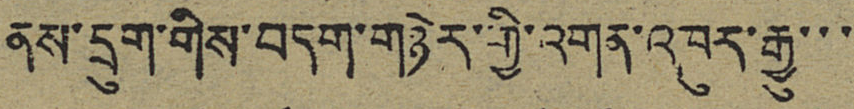ནས་དྲུག་གིས་བདག་གཉེར་གྱི་འགན་འཁུར་རྒྱུ་་་
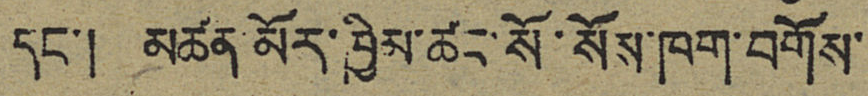དང་། མཚན་མོར་ཁྱིམ་ཚང་སོ་སོས་ཁག་བགོས་
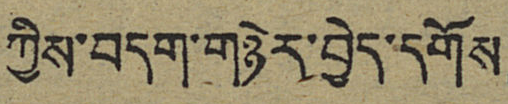ཀྱིས་བདག་གཉེར་བྱེད་དགོས།
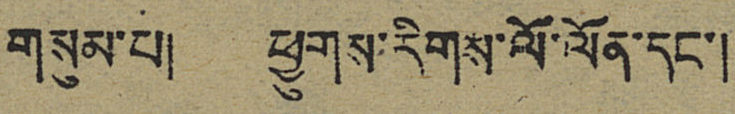གསུམ་པ། ཕྱུགས་རིགས་ལོ་ལོན་དང་།
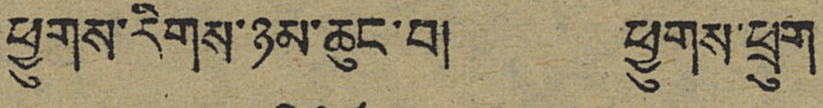ཕྱུགས་རིགས་ཉམ་ཆུང་བ། ཕྱུགས་ཕྲུག
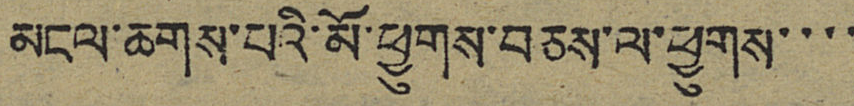མངལ་ཆགས་པའི་མོ་ཕྱུགས་བཅས་ལ་ཕྱུགས་་་་
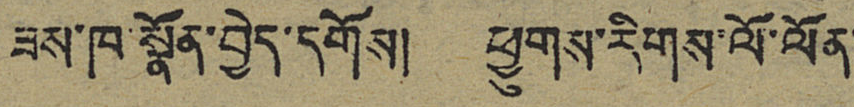ཟས་ཁ་སྣོན་བྱེད་དགོས། ཕྱུགས་རིགས་ལོ་ལོན་
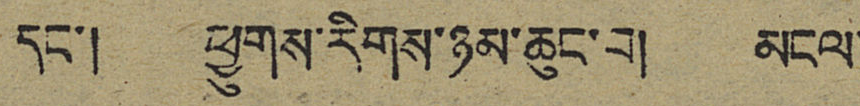དང་། ཕྱུགས་རིགས་ཉམ་ཆུང་བ། མངལ་
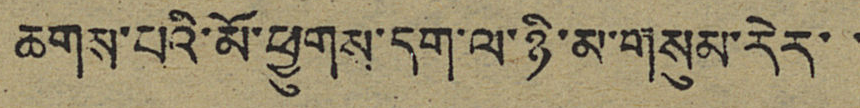ཆགས་པའི་མོ་ཕྱུགས་དག་ལ་ཉི་མ་གསུམ་རེར་་
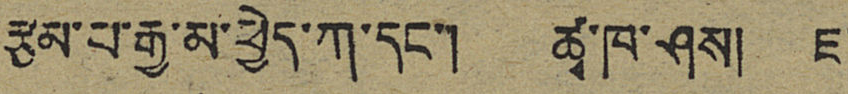རྩམ་པ་རྒྱ་མ་ཕྱེད་ཀ་དང་། ཚྭ་ཁ་ཤས། ཇ་
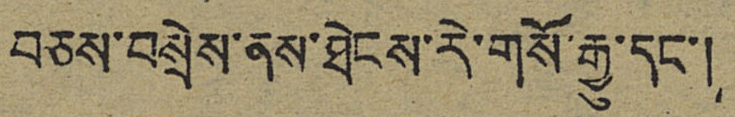བཅས་བསྲེས་ནས་ཐེངས་རེ་གསོ་རྒྱུ་དང་།
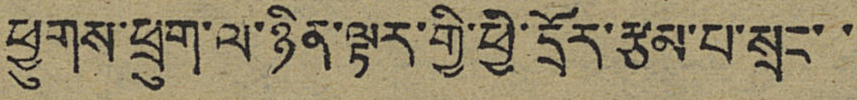ཕྱུགས་ཕྲུག་ལ་ཉིན་ལྟར་གྱི་ཕྱི་དྲོར་རྩམ་པ་སྲང་་
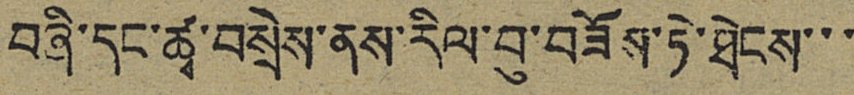བཞི་དང་ཚྭ་བསྲེས་ནས་རིལ་བུ་བཟོས་ཏེ་ཐེངས་་་
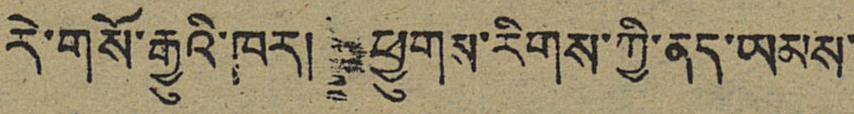རེ་གསོ་རྒྱུའི་ཁར། ཕྱུགས་རིགས་ཀྱི་ནད་ཡམས་
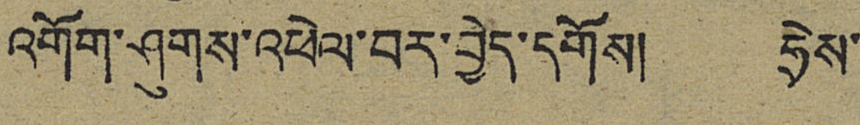འགོག་ཤུགས་འཕེལ་བར་བྱེད་དགོས། ཧྲེས་
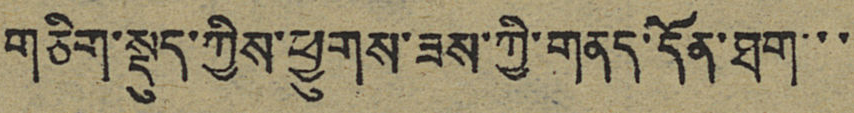གཅིག་སྡུད་ཀྱིས་ཕྱུགས་ཟས་ཀྱི་གནད་དོན་ཐག་་་
